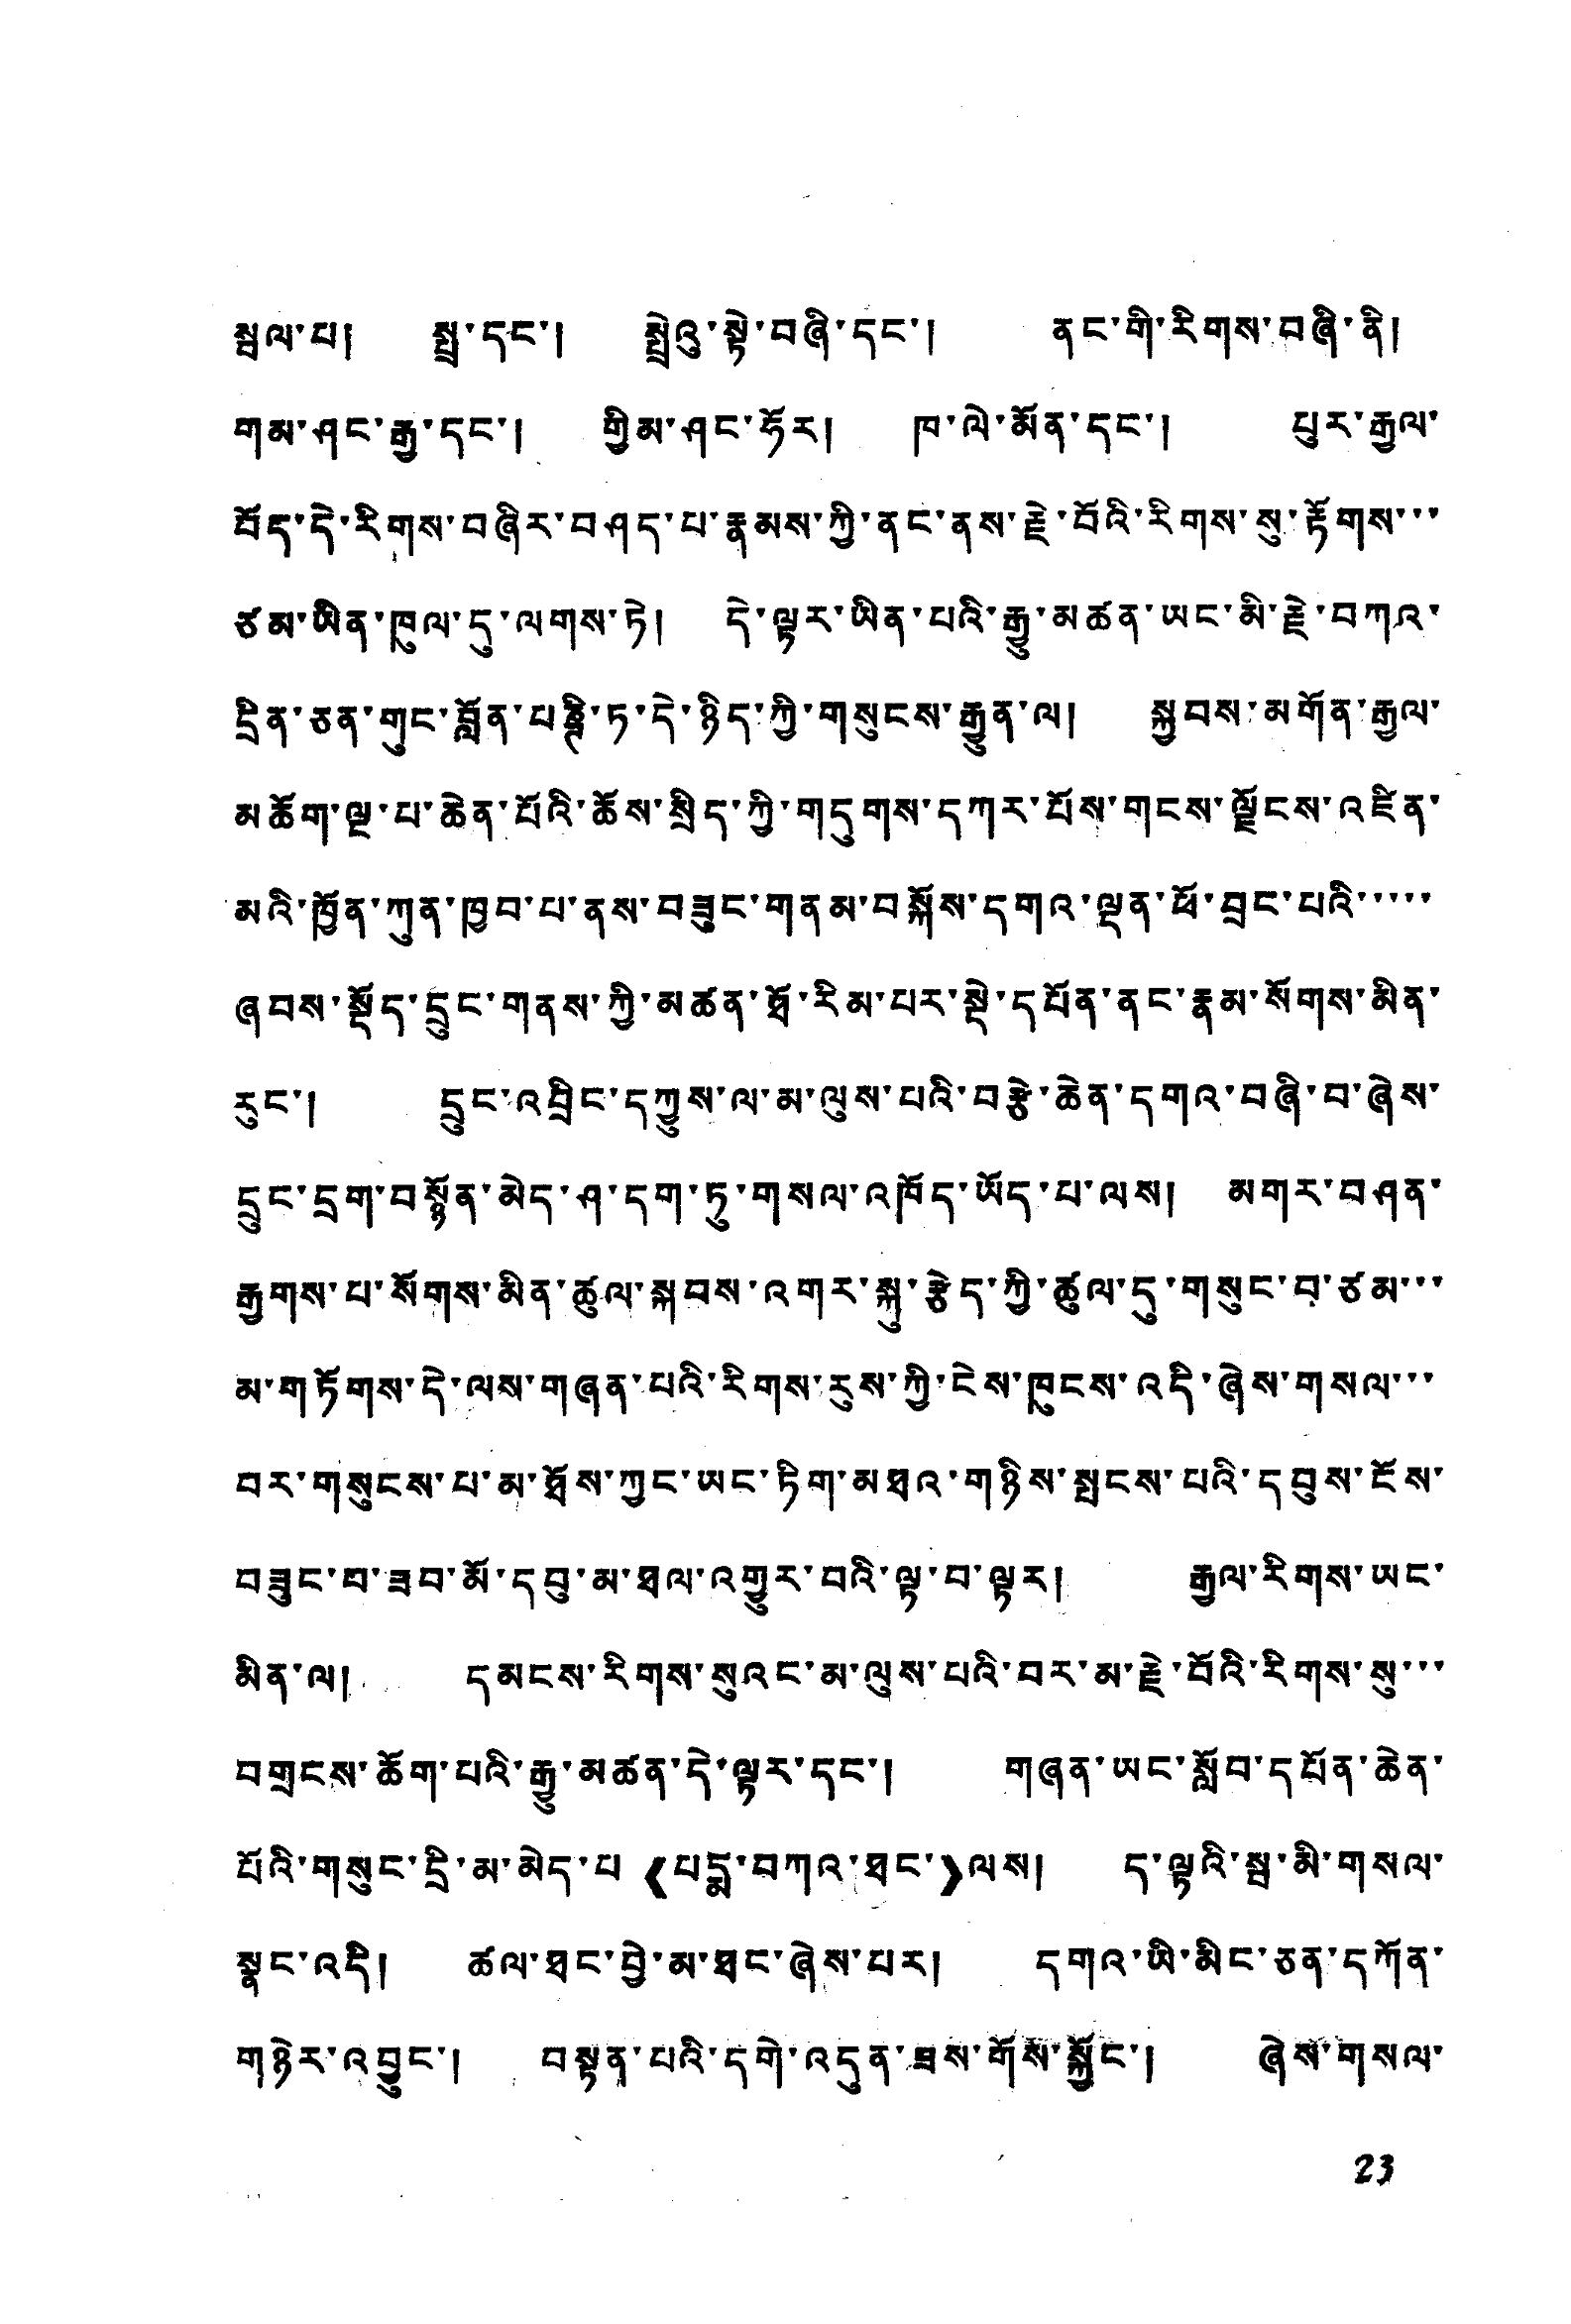སྦལ་པ། སྤྲ་དང་། སྤྲེའུ་སྟེ་བཞི་དང་། ནང་གི་རིགས་བཞི་ནི།
གམ་ཤང་རྒྱ་དང་། གྱིམ་ཤང་ཧོར། ཁ་ལེ་མོན་དང་། པུར་རྒྱལ་
བོད་དེ་རིགས་བཞིར་བཤད་པ་རྣམས་ཀྱི་ནང་ནས་རྗེ་བོའི་རིགས་སུ་རྟོགས་་་
ཙམ་ཡིན་ཁུལ་དུ་ལགས་ཏེ། དེ་ལྟར་ཡིན་པའི་རྒྱུ་མཚན་ཡང་མི་རྗེ་བཀའ་
དྲིན་ཅན་གུང་བློན་པཎྚི་ཏ་དེ་ཉིད་ཀྱི་གསུངས་རྒྱུན་ལ། སྐྱབས་མགོན་རྒྱལ་
མཆོག་ལྔ་པ་ཆེན་པོའི་ཆོས་སྲིད་ཀྱི་གདུགས་དཀར་པོས་གངས་ལྗོངས་འཛིན་
མའི་ཁྱོན་ཀུན་ཁྱབ་པ་ནས་བཟུང་གནམ་བསྐོས་དགའ་ལྡན་ཕོ་བྲང་པའི་་་་་
ཞབས་སྡོད་དྲུང་གནས་ཀྱི་མཚན་ཐོ་རིམ་པར་སྡེ་དཔོན་ནང་རྣམ་སོགས་མིན་
རུང་། དྲུང་འབྲིང་དཀྱུས་ལ་མ་ལུས་པའི་བརྩེ་ཆེན་དགའ་བཞི་བ་ཞེས་
དྲུང་དྲག་བསྙོན་མེད་ཤ་དག་ཏུ་གསལ་འཁོད་ཡོད་པ་ལས། མགར་བཤན་
རྒྱགས་པ་སོགས་མིན་ཚུལ་སྐབས་འགར་སྐུ་རྩེད་ཀྱི་ཚུལ་དུ་གསུང་བ་ཙམ་་་
མ་གཏོགས་དེ་ལས་གཞན་པའི་རིགས་རུས་ཀྱི་ངེས་ཁུངས་འདི་ཞེས་གསལ་་་
བར་གསུངས་པ་མ་ཐོས་ཀྱང་ཡང་ཏིག་མཐའ་གཉིས་སྤངས་པའི་དབུས་ངོས་
བཟུང་བ་ཟབ་མོ་དབུ་མ་ཐལ་འགྱུར་བའི་ལྟ་བ་ལྟར། རྒྱལ་རིགས་ཡང་
མིན་ལ། དམངས་རིགས་སུའང་མ་ལུས་པའི་བར་མ་རྗེ་བོའི་རིགས་སུ་་་
བགྲངས་ཆོག་པའི་རྒྱུ་མཚན་དེ་ལྟར་དང་། གཞན་ཡང་སློབ་དཔོན་ཆེན་
པོའི་གསུང་དྲི་མ་མེད་པ་《པདམ་བཀའ་ཐང》་ལས། ད་ལྟའི་སྦ་མི་གསལ་
སྣང་འདི། ཚལ་ཐང་བྱེ་མ་ཐང་ཞེས་པར། དགའ་ཡི་མིང་ཅན་དཀོན་
གཉེར་འབྱུང་། བསྟན་པའི་དགེ་འདུན་ཟས་གོས་སྐྱོང་། ཞེས་གསལ་
23
